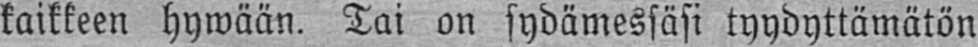kaikkeen hywään. Tai on sydämessäsi tyydyttämätön
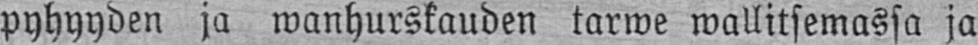pyhyyden ja wanhurskauden tarwe wallitsemassa ja
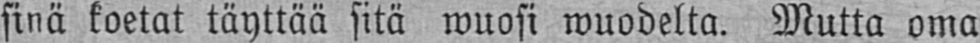sinä koetat täyttää sitä wuosi wuodelta. Mutta oma
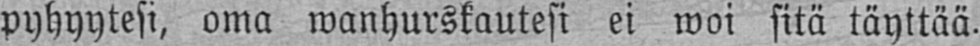pyhyytesi, oma wanhurskautesi ei woi sitä täyttää.
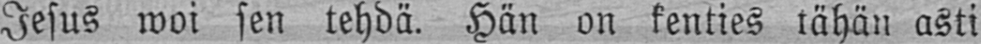Jesus woi sen tehdä. Hän on kenties tähän asti
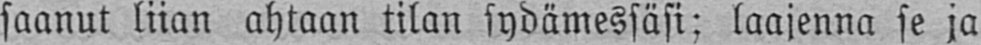saanut liian ahtaan tilan sydämessäsi; laajenna se ja
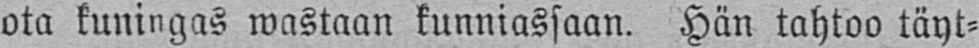ota kuningas wastaan kunniassaan. Hän tahtoo täyt-
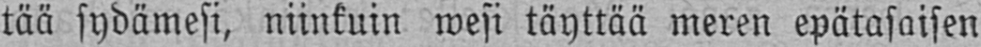tää sydämesi, niinkuin wesi täyttää meren epätasaisen
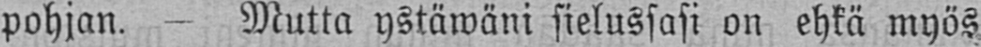pohjan. — Mutta ystäwäni sielussasi on ehkä myös
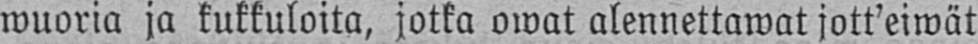wuoria ja kukkuloita, jotka owat alennettawat jott'eiwät
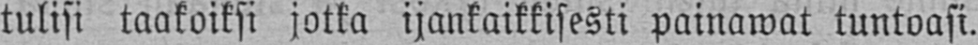tulisi taakoiksi jotka ijankaikkisesti painawat tuntoasi.
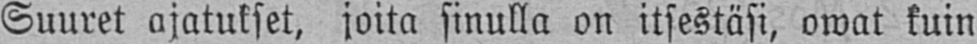Suuret ajatukset, joita sinulla on itsestäsi, owat kuin
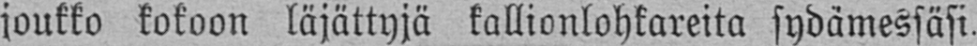joukko kokoon läjättyjä kallionlohkareita sydämessäsi.
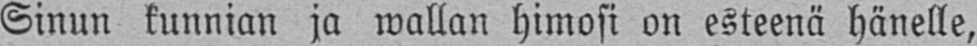Sinun kunnian ja wallan himosi on esteenä hänelle,
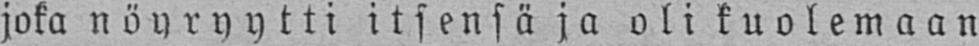joka nöyryytti itsensä ja oli kuolemaan
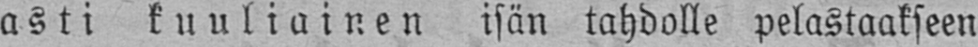asti kuuliainen isän tahdolle pelastaakseen
